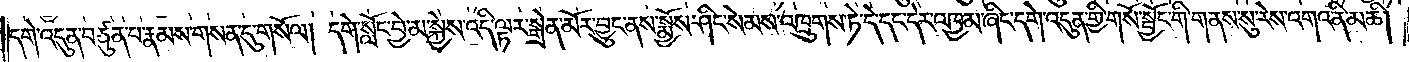དགེ་འདུན་བཙུན་པ་རྣམས་གསན་དུ་གསོལ། དགེ་སློང་བྱེ་མ་སྐྱེས་འདི་ལྟར་སྒྲེན་མོར་བྱུང་ནས་སྨྱོས་ཤིང་སེམས་འཁྲུགས་ཏེ་དེ་དང་དེར་འཁྱམ་ཞིང་དགེ་འདུན་གྱི་གསོ་སྦྱོང་གི་གནས་སུ་རེས་འགའ་ནི་མཆི།
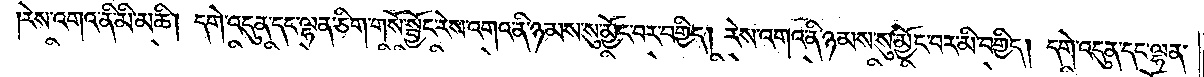རེས་འགའ་ནི་མི་མཆི། དགེ་འདུན་དང་ལྷན་ཅིག་གསོ་སྦྱོང་རེས་འགའ་ནི་ཉམས་སུ་མྱོང་བར་བགྱིད། རེས་འགའ་ནི་ཉམས་སུ་མྱོང་བར་མི་བགྱིད། དགེ་འདུན་དང་ལྷན་
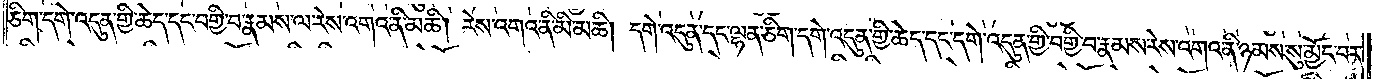ཅིག་དགེ་འདུན་གྱི་ཆེད་དང་བགྱི་བ་རྣམས་ལ་རེས་འགའ་ནི་མཆི། རེས་འགའ་ནི་མི་མཆི། དགེ་འདུན་དང་ལྷན་ཅིག་དགེ་འདུན་གྱི་ཆེད་དང་དགེ་འདུན་གྱི་བགྱི་བ་རྣམས་རེས་འགའ་ནི་ཉམས་སུ་མྱོང་བར་
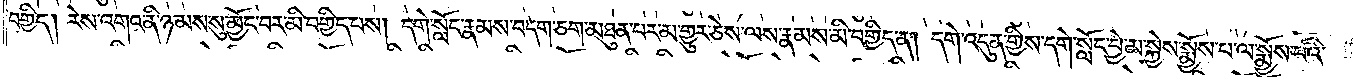བགྱིད། རེས་འགའ་ནི་ཉམས་སུ་མྱོང་བར་མི་བགྱིད་པས། དགེ་སློང་རྣམས་བདག་ཅག་མཐུན་པར་མ་གྱུར་ཅེས་ལས་རྣམས་མི་བགྱིད་ན། དགེ་འདུན་གྱིས་དགེ་སློང་བྱེ་མ་སྐྱེས་སྨྱོས་པ་ལ་སྨྱོས་པའི་
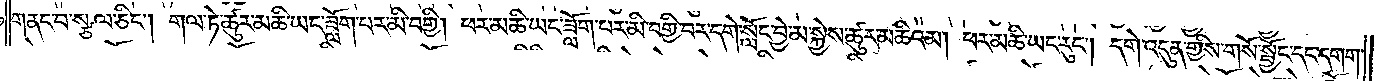གནང་བ་སྩལ་ཅིང༌། གལ་ཏེ་ཚུར་མཆི་ཡང་ཟློག་པར་མི་བགྱི། ཕར་མཆི་ཡང་ཟློག་པར་མི་བགྱི་བར་དགེ་སློང་བྱེ་མ་སྐྱེས་ཚུར་མཆིའམ། ཕར་མཆི་ཡང་རུང༌། དགེ་འདུན་གྱིས་གསོ་སྦྱོང་དང་དགག་
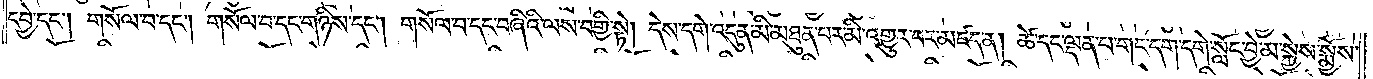དབྱེ་དང༌། གསོལ་བ་དང༌། གསོལ་བ་དང་གཉིས་དང༌། གསོལ་བ་དང་བཞིའི་ལས་བགྱི་སྟེ། དེས་དགེ་འདུན་མི་མཐུན་པར་མི་འགྱུར་བར་མཛད་ན། ཚེ་དང་ལྡན་པ་གང་དག་དགེ་སློང་བྱེ་མ་སྐྱེས་སྨྱོས་
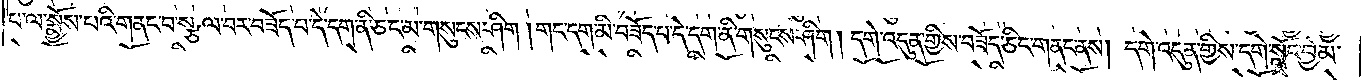པ་ལ་སྨྱོས་པའི་གནང་བ་སྩལ་བར་བཟོད་པ་དེ་དག་ནི་ཅང་མ་གསུངས་ཤིག །གང་དག་མི་བཟོད་པ་དེ་དག་ནི་གསུངས་ཤིག། དགེ་འདུན་གྱིས་བཟོད་ཅིང་གནང་ནས། དགེ་འདུན་གྱིས་དགེ་སློང་བྱེ་མ་
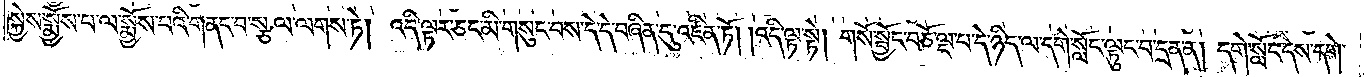སྐྱེས་སྨྱོས་པ་ལ་སྨྱོས་པའི་གནང་བ་སྩལ་ལགས་ཏེ། འདི་ལྟར་ཅང་མི་གསུང་བས་དེ་དེ་བཞིན་དུ་འཛིན་ཏོ། །འདི་ལྟ་སྟེ། གསོ་སྦྱོང་བཅོ་ལྔ་བ་དེ་ཉིད་ལ་དགེ་སློང་ལྟུང་བ་དྲན་ན། དགེ་སློང་དེས་དགེ་
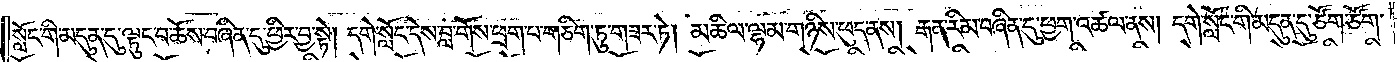སློང་གི་མདུན་དུ་ལྟུང་བ་ཆོས་བཞིན་དུ་ཕྱིར་བྱ་སྟེ། དགེ་སློང་དེས་བླ་གོས་ཕྲག་པ་གཅིག་ཏུ་གཟར་ཏེ། མཆིལ་ལྷམ་གཉིས་ཕུད་ནས། རྒན་རིམ་བཞིན་དུ་ཕྱག་འཚལ་ནས། དགེ་སློང་གི་མདུན་དུ་ཙོག་ཙོག་
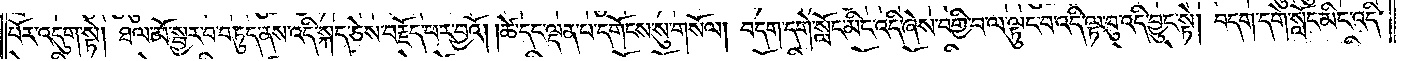པོར་འདུག་སྟེ། ཐལ་མོ་སྦྱར་བ་བཏུད་ནས་འདི་སྐད་ཅེས་བརྗོད་པར་བྱའོ། །ཚེ་དང་ལྡན་པ་དགོངས་སུ་གསོལ། བདག་དགེ་སློང་མིང་འདི་ཞེས་བགྱི་བ་ལ་ལྟུང་བ་འདི་ལྟ་བུ་འདི་བྱུང་སྟེ། བདག་དགེ་སློང་མིང་འདི་
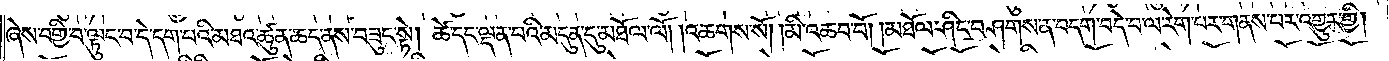ཞེས་བགྱི་བ་ལྟུང་བ་དེ་དག་པའི་མཐའ་ཚུན་ཆད་ནས་བཟུང་སྟེ། ཚེ་དང་ལྡན་པའི་མདུན་དུ་མཐོལ་ལོ། །འཆགས་སོ། །མི་འཆབ་བོ། །མཐོལ་ཤིང་བཤགས་ན་བདག་བདེ་བ་ལ་རེག་པར་གནས་པར་འགྱུར་གྱི།
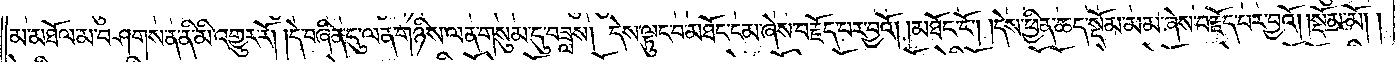མ་མཐོལ་མ་བཤགས་ན་ནི་མི་འགྱུར་རོ། །དེ་བཞིན་དུ་ལན་གཉིས་ལན་གསུམ་དུ་བཟླས། དེས་ལྟུང་བ་མཐོང་ངམ་ཞེས་བརྗོད་པར་བྱའོ། །མཐོང་ངོ༌། །དེས་ཕྱིན་ཆད་སྡོམ་མམ་ཞེས་བརྗོད་པར་བྱའོ། །སྡོམ་མོ། །
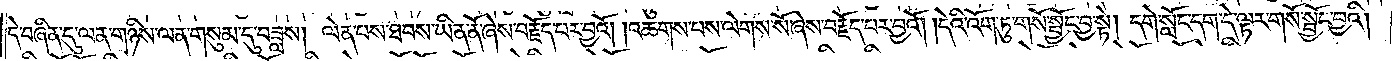དེ་བཞིན་དུ་ལན་གཉིས་ལན་གསུམ་དུ་བཟླས། ལེན་པས་ཐབས་ཡིན་ནོ་ཞེས་བརྗོད་པར་བྱའོ། །འཆགས་པས་ལེགས་སོ་ཞེས་བརྗོད་པར་བྱའོ། །དེའི་འོག་ཏུ་གསོ་སྦྱོང་བྱ་སྟེ། དགེ་སློང་དག་དེ་ལྟར་གསོ་སྦྱོང་བྱའི།
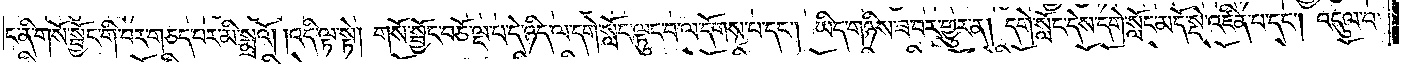ང་ནི་གསོ་སྦྱོང་གི་བར་གཅད་པར་མི་སྨྲའོ། །འདི་ལྟ་སྟེ། གསོ་སྦྱོང་བཅོ་ལྔ་པ་དེ་ཉིད་ལ་དགེ་སློང་ལྟུང་བ་ལ་དོགས་པ་དང༌། ཡིད་གཉིས་ཟ་བར་གྱུར་ན། དགེ་སློང་དེས་དགེ་སློང་མདོ་སྡེ་འཛིན་པ་དང༌། འདུལ་བ་
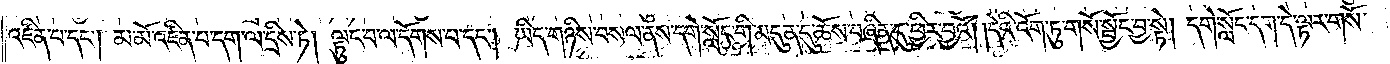འཛིན་པ་དང༌། མ་མོ་འཛིན་པ་དག་ལ་དྲིས་ཏེ། ལྟུང་བ་ལ་དོགས་པ་དང༌། ཡིད་གཉིས་བསལ་ནས་དགེ་སློང་གི་མདུན་དུ་ཆོས་བཞིན་དུ་ཕྱིར་བྱའོ། །དེའི་འོག་ཏུ་གསོ་སྦྱོང་བྱ་སྟེ། དགེ་སློང་དག་དེ་ལྟར་གསོ་
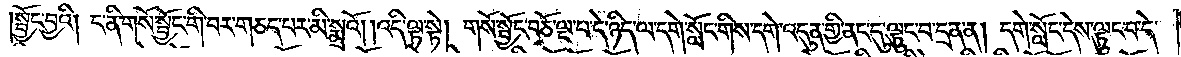སྦྱོང་བྱའི། ང་ནི་གསོ་སྦྱོང་གི་བར་གཅད་པར་མི་སྨྲའོ། །འདི་ལྟ་སྟེ། གསོ་སྦྱོང་བཅོ་ལྔ་པ་དེ་ཉིད་ལ་དགེ་སློང་གིས་དགེ་འདུན་གྱི་ནང་དུ་ལྟུང་བ་དྲན་ན། དགེ་སློང་དེས་ལྟུང་བ་དེ་
